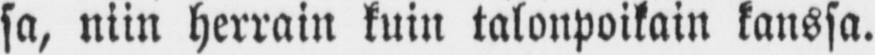sa, niin herrain kuin talonpoikain kanssa.
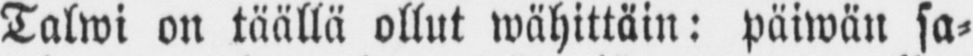Talwi on täällä ollut wähittäin: päiwän sa-
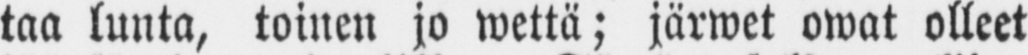taa lunta, toinen jo wettä; järwet owat olleet
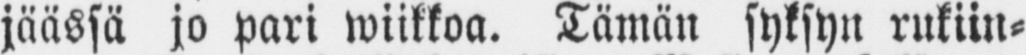jäässä jo pari wiikkoa. Tämän syksyn rukiin-
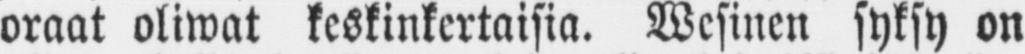oraat oliwat keskinkertaisia. Wesinen syksy on
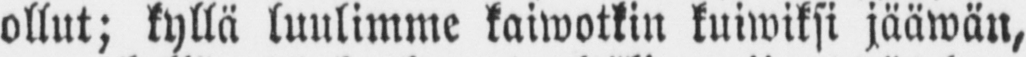ollut; kyllä luulimme kaiwotkin kuiwiksi jääwän,
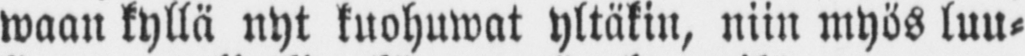waan kyllä nyt kuohuwat yltäkin, niin myös luu-
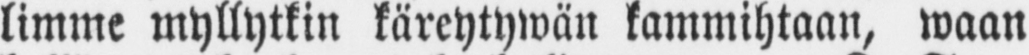limme myllytkin käreytywän kammihtaan, waan
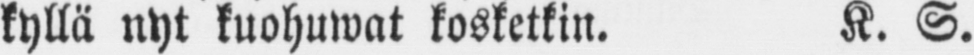kyllä nyt kuohuwat kosketkin. R. S.
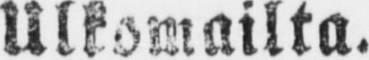Ulkomailta.
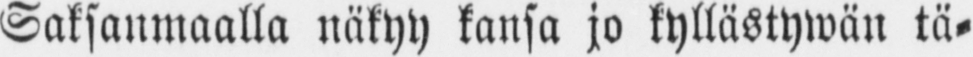Saksanmaalla näkyy kansa jo kyllästywän tä-
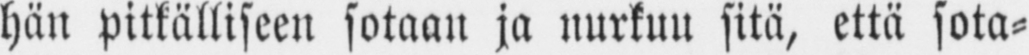hän pitkälliseen sotaan ja nurkuu sitä, että sota-
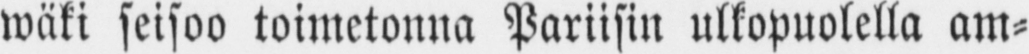wäki seisoo toimetonna Pariisin ulkopuolella am-
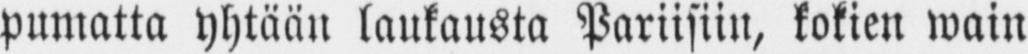pumatta yhtään laukausta Pariisiin, kokien wain
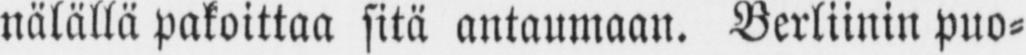nälällä pakoittaa sitä antaumaan. Berliinin puo-
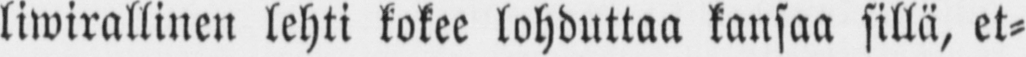liwirallinen lehti kokee lohduttaa kansaa sillä, et-
